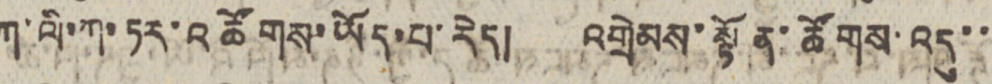ཀ་ལི་ཀ་ཏར་འཚོགས་ཡོད་པ་རེད། འགྲེམས་སྟོན་ཚོགས་འདུ་་
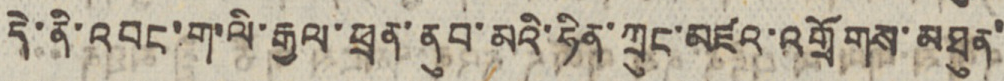དེ་ནི་འབང་ག་ལི་རྒྱལ་ཕྲན་ནུབ་མའི་ཧིན་ཀྲུང་མཛའ་འགྲོགས་མཐུན་
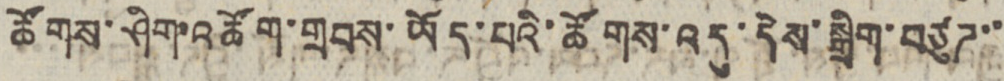ཚོགས་ཤིག་འཚོག་གྲབས་ཡོད་པའི་ཚོགས་འདུ་དེས་སྒྲིག་བཙུཊ་་
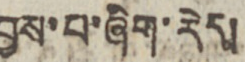བྱས་པ་ཞིག་རེད།
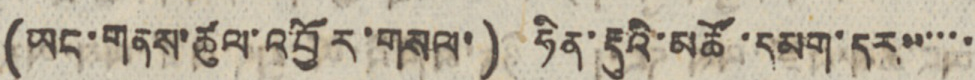(ཡང་གནས་ཚུལ་འབྱོར་གསལ་) ཧིན་རྡུའི་མཚོ་དམག་དར་་་་་་
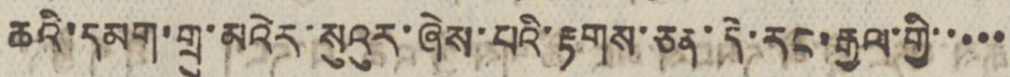ཆའི་དམག་གྲུ་མའེར་སུའུར་ཞེས་པའི་རྟགས་ཅན་དེ་རང་རྒྱལ་གྱི་་་་་
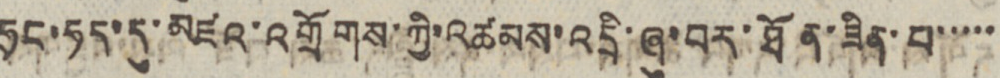ཧྲང་ཧད་དུ་མཛའ་འགྲོགས་ཀྱི་འཚམས་འདྲི་ཞུ་བར་ཐོན་ཟིན་པ་་་་་
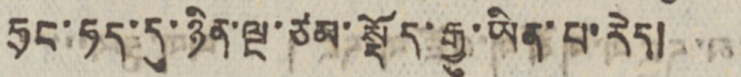ཧྲང་ཧད་དུ་ཉིན་ལྔ་ཙམ་སྡོད་རྒྱུ་ཡིན་པ་རེད།
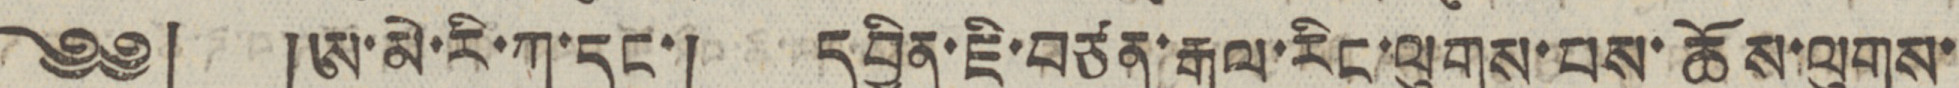༄༅། །ཨ་མེ་རི་ཀ་དང་། དབྱིན་ཇི་བཙན་རྒྱལ་རིང་ལུགས་པས་ཚོས་ལུགས་
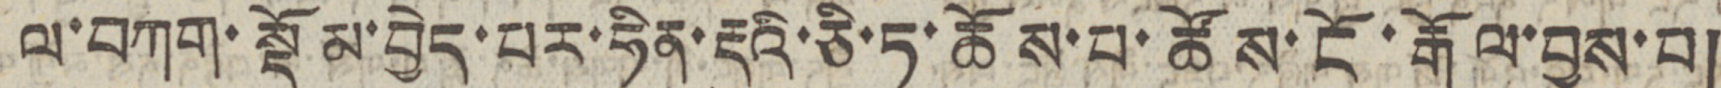ལ་བཀག་སྡོམ་བྱེད་པར་ཧིན་རྡུའི་ཅི་ཏུ་ཆོས་པ་ཚོས་ངོ་རྒོལ་བྱས་པ།
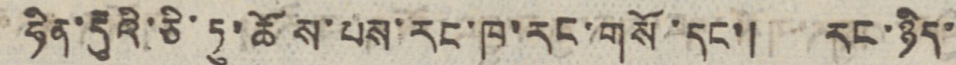ཧིན་རྡུའི་ཅི་ཏུ་ཆོས་པས་རང་ཁ་རང་གསོ་དང་། རང་ཉིད་
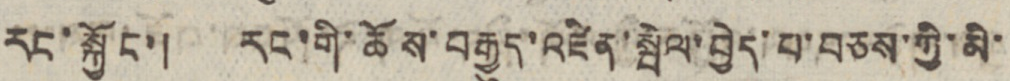རང་སྐྱོང་། རང་གི་ཆོས་བརྒྱུད་འཛིན་སྦེལ་བྱེད་པ་བཅས་ཀྱི་མི་
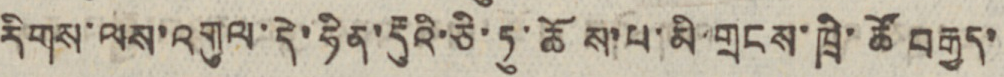རིགས་ལས་འགུལ་དེ་ཧིན་རྡུའི་ཅི་ཏུ་ཆོས་པ་མི་གྲངས་ཁྲི་ཚོ བརྒྱད་
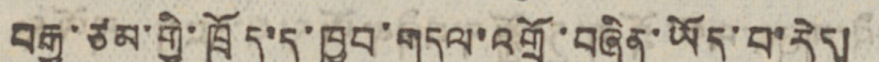བརྒྱ་ཙམ་གྱི་ཁྲོད་དུ་ཁྱབ་གདལ་འགྲོ་བཞིན་ཡོད་པ་རེད།
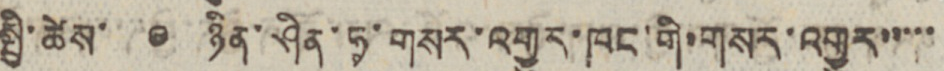སྤྱི་ཚེས་ ༩ ཉིན་ཤིན་ཧྭ་གསར་འགྱུར་ཁང་གི་གསར་འགྱུར་་་་་
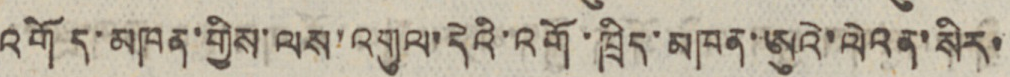འགོད་མཁན་གྱིས་ལས་འགུལ་དེའི་འགོ་ཁྲིད་མཁན་ཨུའེ་ལེའན་སིར་
